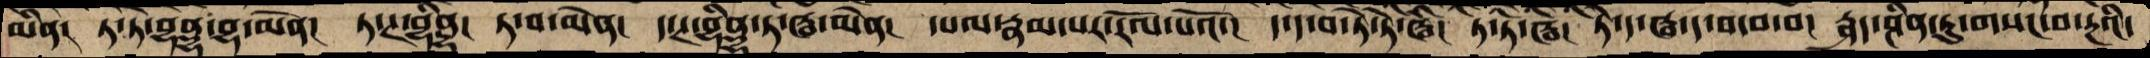མིན།  ཏ་ཏ་བྷནྡྷ་བྷ་མེན།  ཏ་ཊ་བྷིནྡྷ། ཏ་བ་མེན།  ད་ཊ་བྷིནྡྷ་ཏ་ཝ་མེན།  དཔལ་རྣམ་པར་རོལ་པའོ་།  ད་ད་བ་ཏེ་ཏེ་ཝི།  ཏེ་ཏེ་ཝེ།  ཏེ་ད་ཝ་ད་བ་བ་བ། རྴད་ཤིན་ཏུ་གསང་བ་རྔའི་
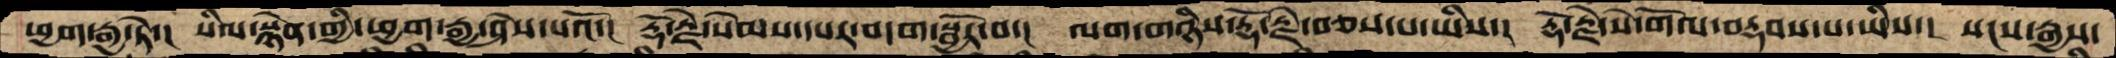ཕྱག་རྒྱ་ཏེ་།  སིལ་སྙེན་གྱི་ཕྱག་རྒྱ་ཤེས་པའོ་།  རྡོ་རྗེ་སེམས་དཔར་བདག་སྦྱོར་བ་།  ལག་གཉིས་རྡོ་རྗེ་བཅས་པ་ཡིས་།  རྡོ་རྗེ་སེ་གོལ་བརྡབས་པ་ཡིས་།  སངས་རྒྱས་
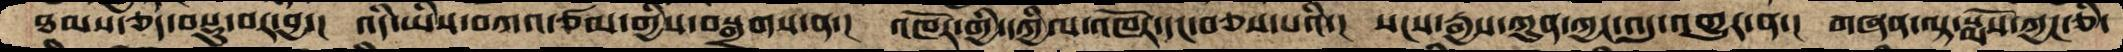ཐམས་ཅད་བསྡུ་བར་བྱ་།  འདི་ཡིས་བཀའ་ཙམ་གྱིས་བསྒྲགས་ན་།  འཁོར་གྱི་དཀྱིལ་འཁོར་དང་བཅས་པའི་།  སངས་རྒྱས་ཀུན་ཀྱང་འདུ་འགྱུར་ན་། གཞན་ལྟ་སྨོས་ཀྱང་ཅི་
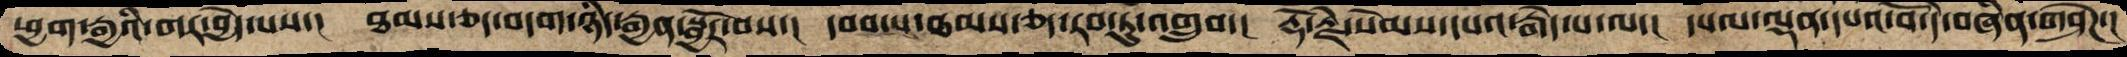ཕྱག་རྒྱའི་གར་བྱེད་པས་།  ཐམས་ཅད་བདག་ཉིད་རྒྱན་སྦྱོར་བས་།  དབབ་པ་ཐམས་ཅད་རབ་ཏུ་འགྲུབ་།  རྡོ་རྗེ་སེམས་དཔའ་རྨེད་པ་ལ་།  དཔལ་ལྡན་དཔའ་བོ་དེ་བཞིན་གཤེཌ་།
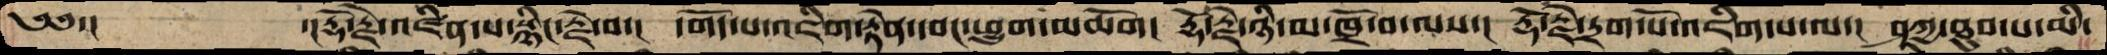༄༅་།      ་།རྡོ་རྗེ་འཛིན་པ་སྙིང་རྗེ་བ་།  དགོད་པ་འཇིག་རྟེན་དབང་ཕྱུག་མཆོག།  རྡོ་རྗེ་ཉི་མ་ཁྲོ་བ་ལས་།  རྡོ་རྗེ་དྲག་པོ་འཇིག་པ་ལ་།  ཤཱཀྱ་ཐུབ་པ་མི་
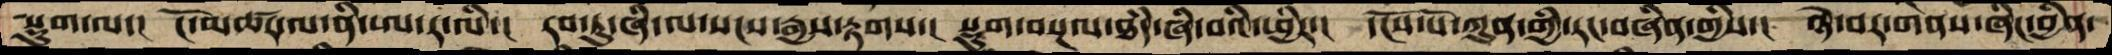སྡུག་ལ་།  ངོ་མཚར་ལ་ནི་ཨ་ར་ལི་།  རབ་ཏུ་ཞི་ལ་སངས་རྒྱས་རྟགས་།  སྡུག་བསྔལ་ཐཾད་ཞི་བའི་ཕྱིར་།  དངོས་པོ་ཀུན་གྱི་རང་བཞིན་གྱིས་།  ཉེ་བར་གནས་ཞིང་བྱིན་
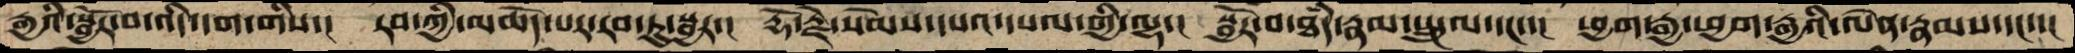རྒྱའི་སྦྱོར་བ་འདི་དག་གིས་།  རབ་ཀྱི་མཆོད་པར་རབ་ཏུ་སྦྱར་།  རྡོ་རྗེ་སེམས་དཔའ་དཔལ་གྱི་ལྷ་།  སྦྱོར་བ་ཐདཾ་རྣམ་སྤྲུལ་དང་་།  ཕྱག་རྒྱ་ཕྱག་རྒྱའི་ལེན་རྣམས་དང་་།
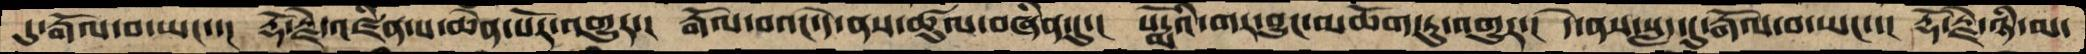དུ་རྒོལ་བ་ཡང་་།  རྡོ་རྗེ་འཛིན་པ་ཆེན་པོར་འགྱུར་།  རྒོལ་བའང་དེ་ནས་ཚུལ་བཞིན་དུ་།  པདྨོའི་གར་བྱུང་མཆོག་ཏུ་འགྱུར་།   དེ་ནས་སླད་དུ་རྒོལ་བ་ཡང་་།  རྡོ་རྗེ་ཉི་མ་
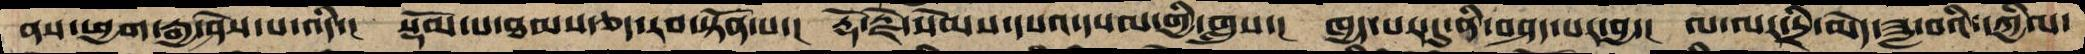ནས་ཕྱག་རྒྱ་ཤེས་པ་འདི་།  སྡོམ་པ་ཐམས་ཅད་རབ་སྟོན་པ་།  རྡོ་རྗེ་སེམས་དཔའ་དཔལ་གྱི་གླུས་།  ཁྱད་པར་དུ་ནི་བཤད་པར་བྱ་།  ལ་ལ་དྲི་མེད་ཟླ་བའི་དཀྱིལ་
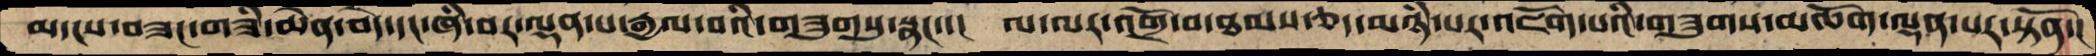མདངས་བཟང་གཟི་ཆེན་བདེ་དང་ཞི་བར་ལྡན་པ་རྒྱལ་བའི་གཟུགསུ་སྣང་་།  ལ་ལར་འགྲོ་བ་ཐམས་ཅད་མཉཾ་པར་འཇོག་པའི་གཟུགས་མཆོག་ལྡན་པར་སྟོན་།
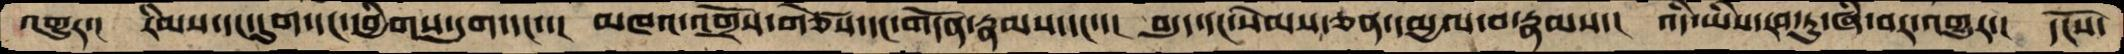འགྱུར་།  རིམས་དང་དུག་དང་དབྱིགས་དུག་དང་་།  མཁའ་འགྲོས་གཙེས་དང་གདོན་རྣམས་དང་་།  བདུད་དང་སེམས་ཅན་དམྱལ་བ་རྣམས་།  འདི་ཡིས་རབ་ཏུ་ཞི་བར་འགྱུར་།  དངོས་
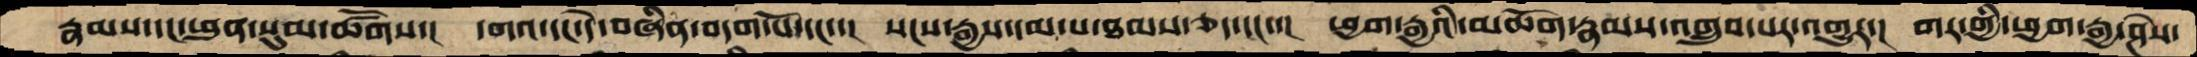རྣམས་དང་ཕུན་སུམ་ཚོགས་།  དགའ་དང་དེ་བཞིན་བདག་པོ་དང་་། སངས་རྒྱས་དམ་པ་ཐམས་ཅད་དང་་།  ཕྱག་རྒྱའི་མཆོག་རྣམས་འགྲུབ་པར་འགྱུར་།  གར་གྱི་ཕྱག་རྒྱ་ཤེས་
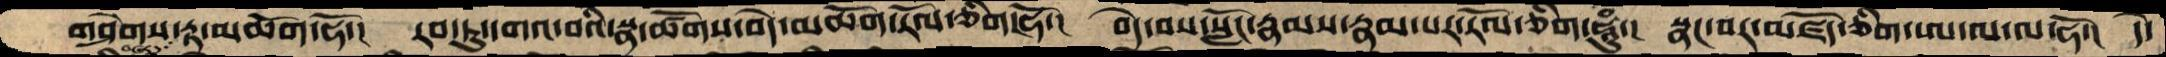གཤེགས་བཞད་རྟ་མཆོག་ཧོ་། རབ་ཏུ་དགའ་བའི་སྣ་ཚོགས་བདེ་མཆོག་རོལ་ཅིག་ཧོ་། བདེ་བས་སློང་རྣམས་རྣམ་པར་རོལ་ཅིག་ཧཱུཾ་། སྣང་བར་མཛོད་ཅིག་ཨ་ལ་ལ་ཧོ་། དེ་
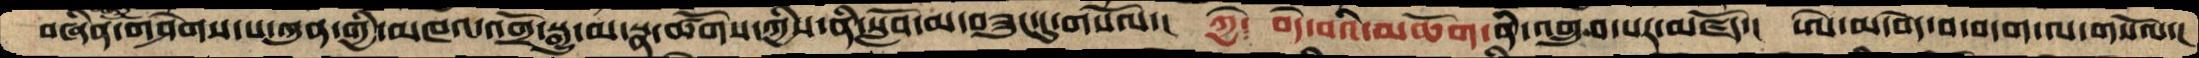བཞིན་གཤེགས་པ་ཀུན་གྱི་མཁའ་འགྲོ་སྒྱུ་མ་སྣ་ཚོགས་ཀྱིས་ནི་སློབ་མ་བཟུང་དུ་གསོལ་། ཀྱེ་ བདེ་བའི་མཆོག་ནི་འགྲུབ་པར་མཛོད་། ཨེ་མ་བདེ་བ་བདག་ལ་གསོལ་།
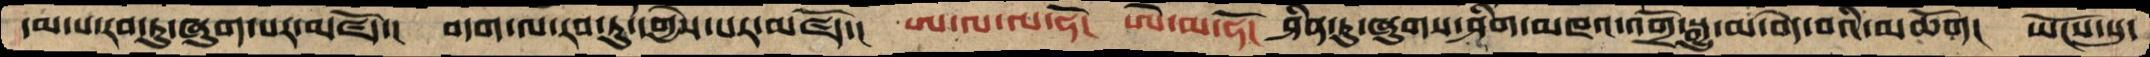དམ་པ་རབ་ཏུ་ཞུག་པར་མཛོད་།  བདག་ལ་རབ་ཏུ་དགྱེས་པར་མཛོད་།  ཨ་ལ་ལ་ཧོ།  ཨེ་མ་ཧོ།  ཤིན་ཏུ་ཞུགས་ཤིག་མཁའ་འགྲོ་སྒྱུ་མ་བདེ་བའི་མཆོག།  ཡོངས་སུ་
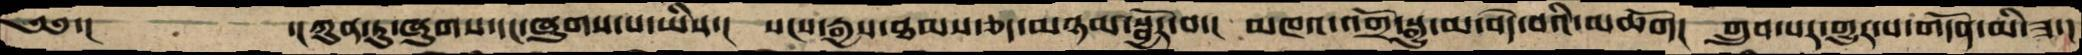༄༅་།    ་།ཀུན་ཏུ་ཞུགས་དང་ཞུགས་པ་ཡིས་།  སངས་རྒྱས་ཐམས་ཅད་མཉམ་སྦྱོར་བ་།  མཁའ་འགྲོ་སྒྱུ་མ་བདེ་བའི་མཆོག།  གྲུབ་པར་གྱུར་པ་གདོན་མི་ཟ་།
